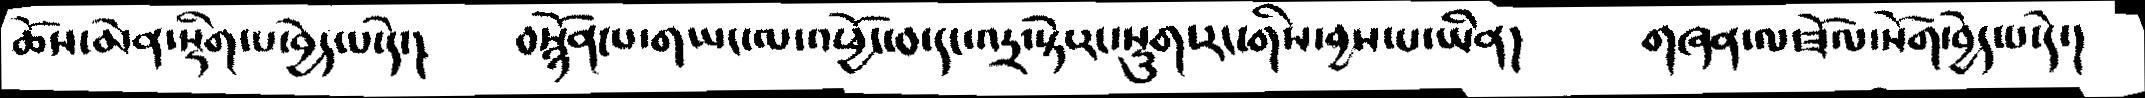ཆོས་མེདན་སྡིག་པ་བྱེད་པ་དེ་།  བསྙོན་པ་གཡང་ལ་འཕྱོང་བ་དང་འདྲ་སྟེ་རང་སྡུག་རང་གིས་བྱས་པ་ཡིན། གཞན་ལ་ཟོལ་སོག་བྱེད་པ་དེ་།
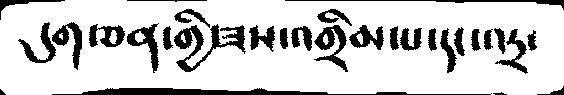དུག་ཅན་གྱི་ཟས་འགྲིམ་པ་དང་འདྲ་
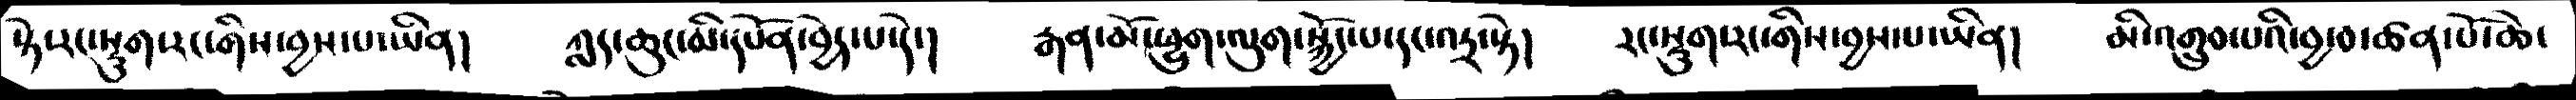སྟེ་རང་སྡུག་རང་གིས་བྱས་པ་ཡིན།  ཀླད་ཆུང་མི་དཔོན་བྱེད་པདེ་།  རྒན་མོ་ཕྱུག་ལུག་སྐྱོང་པ་དང་འདྲ་སྟེ།  རང་སྡུག་རང་གིས་བྱས་པ་ཡིན།  མི་འགྲུབ་པའི་བྱ་བ་ཚན་པོ་ཆེ་
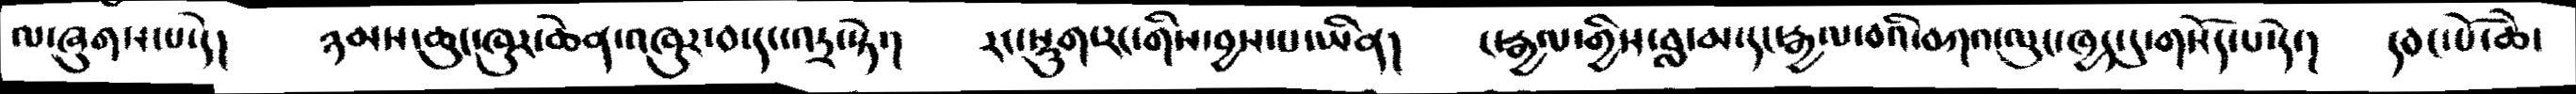ལ་ཞུགས་པ་དེ།  ཉམས་ཆུང་ཁུར་ཆེན་འཁུར་བ་དང་འདྲ་སྟེ་།  རང་སྡུག་རང་གིས་བྱས་པ་ཡིན།  ང་རྒྱལ་གྱིས་བླ་མ་དང་རྒྱལ་བའི་བཀའ་ལུང་ཁྱད་དུ་གསོད་པ་དེ་།  དབང་པོ་ཆེ་
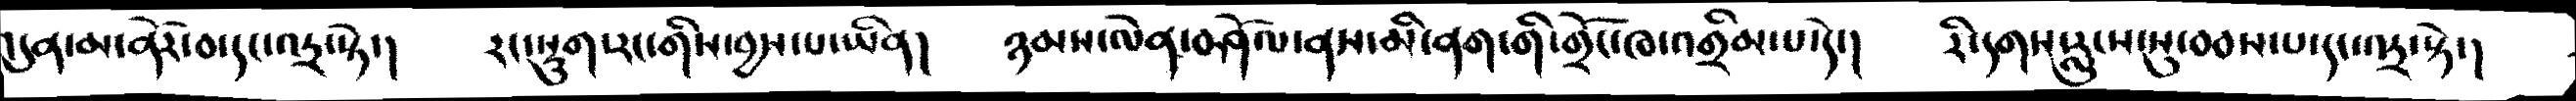འདུན་མ་ནོར་བ་དང་འདྲ་སྟེ་།  རང་སྡུག་རང་གིས་བྱས་པ་ཡིན།  ཉམས་ལེན་བཤོལ་ནས་མི་ནག་གོ་གྲོང་ལ྄་འགྲིམ་པ་དེ་།  རི་དགས་རླུང་སུ་བབས་པ་དང་འདྲ་སྟེ་།
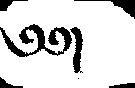༄༅།
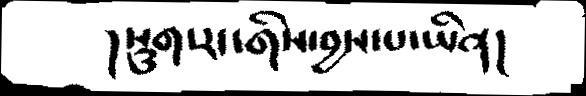།སྡུག་རང་གིས་བྱས་པ་ཡིན།
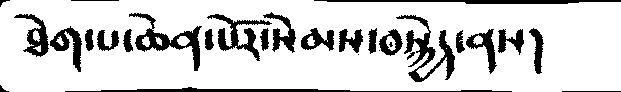ཐེག་པ་ཆེན་པོར་སེམས་བསྐྱེད་ནས།
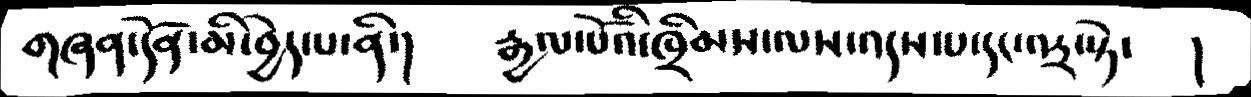གཞན་དོན་མི་བྱེད་པ་ནི་།  རྒྱལ་པོའི་ཁྲིམས་ལས་འདས་པ་དང་འདྲ་སྟེ་   །
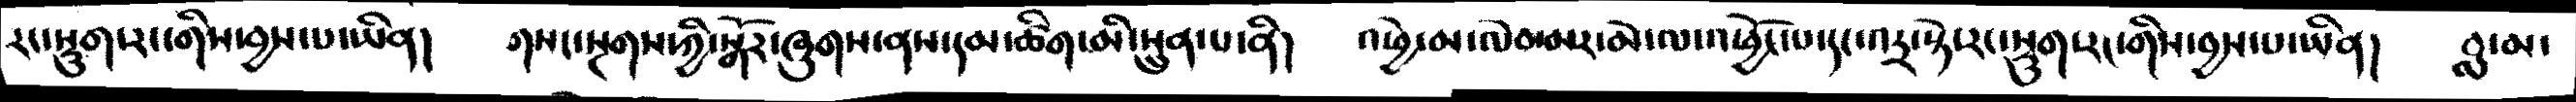རང་སྡུག་རང་གིས་བྱས་པ་ཡིན།  གསང་སྔགས་ཀྱི་སྒོར་ཞུགས་ནས་དམ་ཚིག་མི་སྲུན་པ་ནི།  འཕྱེ་མ་ལེབ་མར་མེ་ལ་འཕྱོང་པ་དང་འདྟ་སྟེ་རང་གིས་བྱས་པ་ཡིན། བླ་མ་
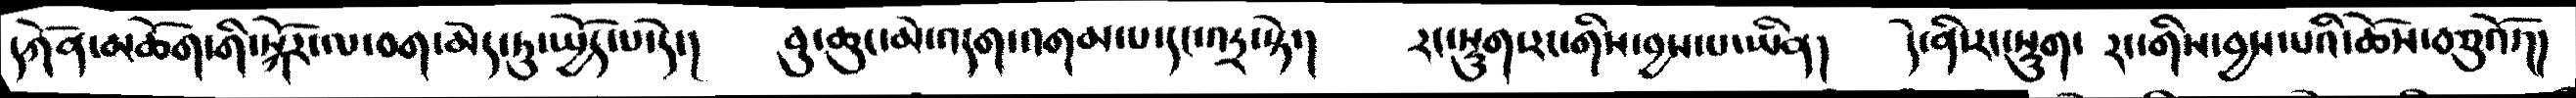དཀོན་མཆོག་གི་སྐོར་ལ་བག་མེད་ཏུ་སྤྱོད་པ་དེ་།  བུ་ཆུང་མེ་འདག་འགམ་པ་དང་འདྲ་སྟེ་།  རང་སྡུག་རང་གིས་བྱས་པ་ཡིན།  དེ་ནི་རང་སྡུག་ རང་གིས་བྱས་པའི་ཆོས་བཅུའོ་།།
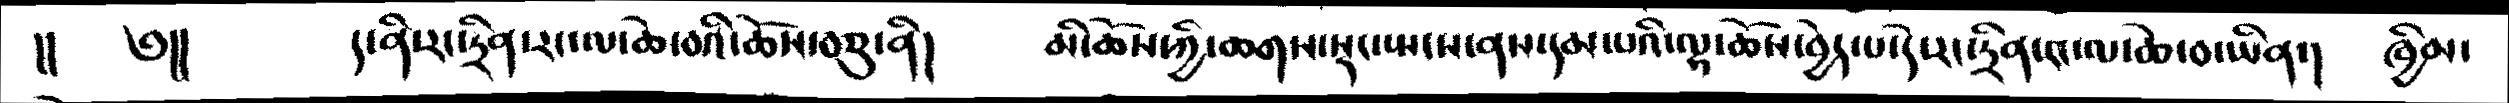།།   ༅།། ད་ནི་རང་དྲིན་རང་ལ་ཆེ་བའི་ཆོས་བཅུ་ནི།  མི་ཆོས་ཀྱི་ཆགས་སྡང་སྤངས་ནས་དམ་པའི་ལྷ་ཆོས་བྱེད་པ་དེ་རང་དྲིན་རང་ལ་ཆེ་བ་ཡིན་།  ཁྱིམ་
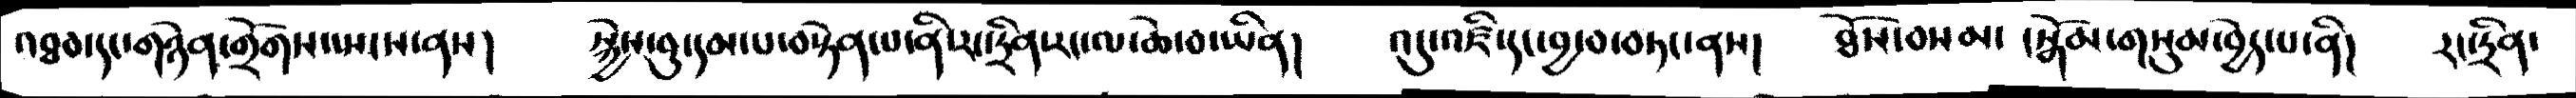འཐབ་དང་གཉེན་གྲོགས་སྤངས་ནས།  སྐྱེས་བུ་དམ་པ་བསྟེན་པ་ནི་རང་དྲིན་རང་ལ་ཆེ་བ་ཡིན།  འདུ་འཛི་དང་བྱ་བ་བཏང་ནས།  ཐོས་བསམ་ ་སྒོམ་གསུམ་བྱེད་པ་ནི།  རང་དྲིན་
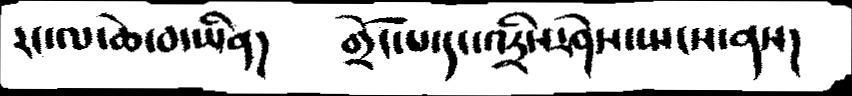རང་ལ་ཆེ་བ་ཡིན།  གྲོང་པ་དང་འདྲིས་ཤེས་སྤངས་ནས།
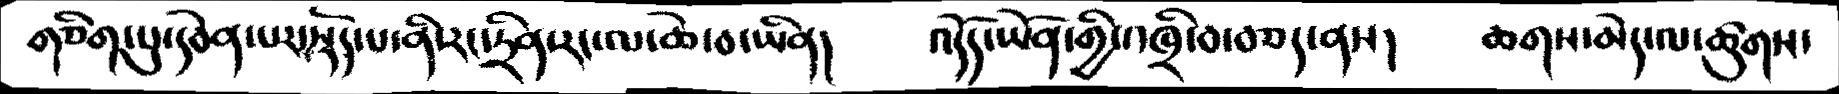གཅིག་པུ་དབེན་པར་སྡོད་པ་ནི་རང་དྲིན་རང་ལ་ཆེ་བ་ཡིན།  འདོད་ཡོན་གྱི་འཁྲི་བ་བཅད་ནས།  ཆགས་མེད་ལ་ཚུགས་
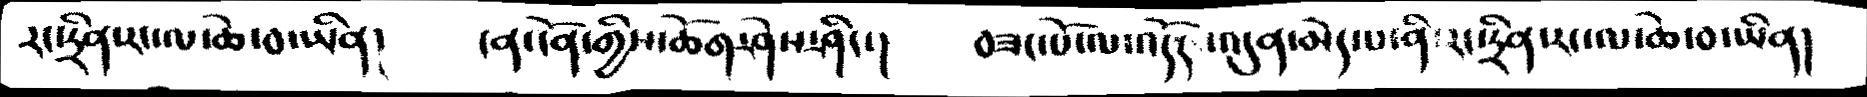རང་དྲིན་རང་ལ་ཆེ་བ་ཡིན།   ངན་ངོན་གྱིས་ཆོག་ཤེས་ཤིང་།  བཟང་པོ་ལ་འདོད ་འདུན་མེད་པ་ནི་དྲིན་རང་ལ་ཆེ་བ་ཡིན།
